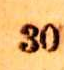30
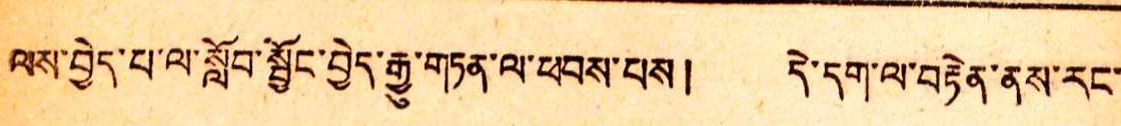ལས་བྱེད་པ་ལ་སློབ་སྦྱོང་བྱེད་རྒྱུ་གཏན་ལ་ཕབས་བས། དེ་དག་ལ་བརྟེན་ནས་རང་
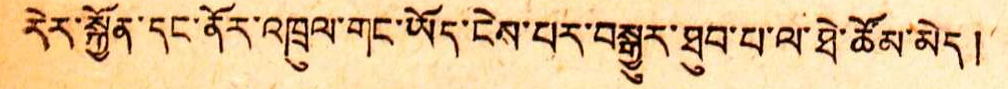རེར་སྐྱོན་དང་ནོར་འཁྲུལ་གང་ཡོད་ངེས་པར་བསྒྱུར་ཐུབ་པ་ལ་ཐེ་ཚོམ་མེད།
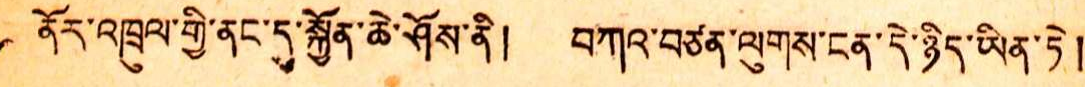ནོར་འཁྲུལ་གྱི་ན་ངདུ་སྐྱོན་ཆེ་ཤོས་ནི། བཀའ་བཙན་ལུགས་ངན་དེ་ཉིད་ཡིན་ཏེ།
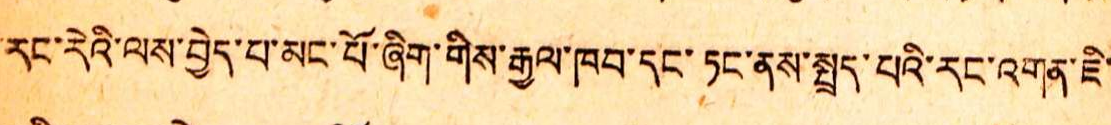རང་རེའི་ལས་བྱེད་པ་མང་པོ་ཞིག་གིས་རྒྱལ་ཁབ་དང་ཏང་ནས་སྤྲད་པའི་རང་འགན་ཇི་
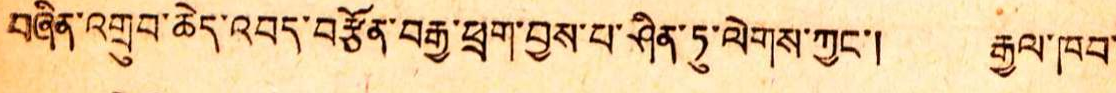བཞིན་འགྲུབ་ཆེད་འབད་བརྩོན་བརྒྱ་ཕྲག་བྱས་པ་ཤིན་ཏུ་ལེགས་ཀྱང་། རྒྱལ་ཁབ་
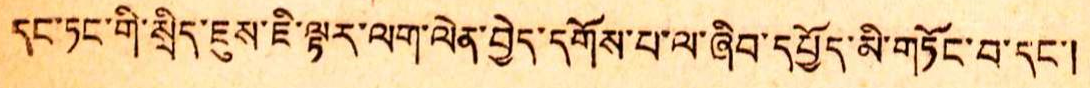དང་ཏང་གི་སྲིད་ཇུས་ཇི་ལྟར་ལག་ལེན་བྱེད་དགོས་པ་ལ་ཞིབ་དཔྱོད་མི་གཏོང་བ་དང་།
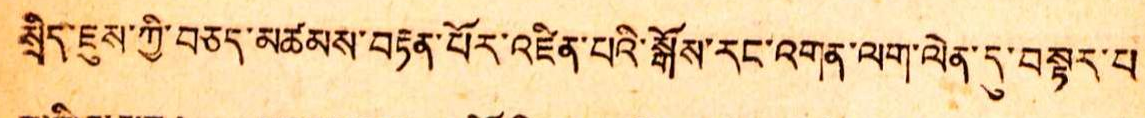སྲིད་ཇུས་ཀྱི་བཅད་མཚམས་བརྟན་པོར་འཛིན་པའི་སྒོས་རང་འགན་ལག་ལེན་དུ་བསྟར་པ
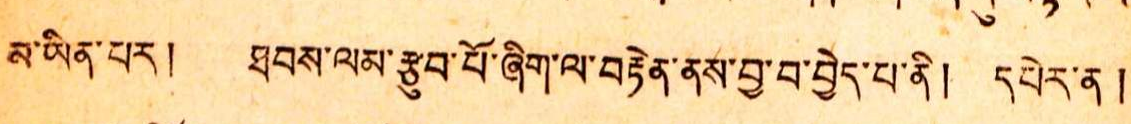མ་ཡིན་པར། ཐགས་ལམ་རྩུབ་པོ་ཞིག་ལ་བརྟེན་ནས་བྱ་བ་བྱེད་པ་ནི། དཔེར་ན།
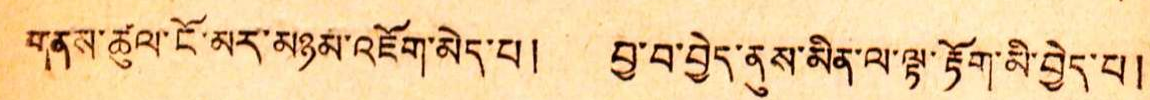གནས་ཚུལ་ངོ་མར་ཡཉམ་འཇོག་མེད་པ། བྱ་བ་བྱེད་ནུས་མིན་ལ་ལྟ་རྟོག་མི་བྱེད་པ།
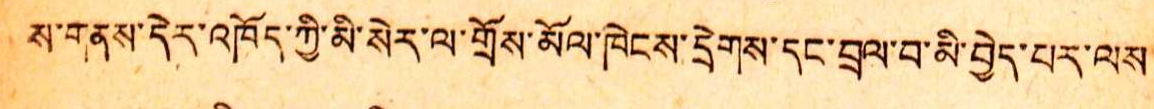ས་གནས་དེར་འཁོད་ཀྱི་མི་སེར་ལ་གྲོས་མོལ་ཁེངས་དྲེགས་དང་བྲལ་བ་མི་བྱེད་པར་ལས་
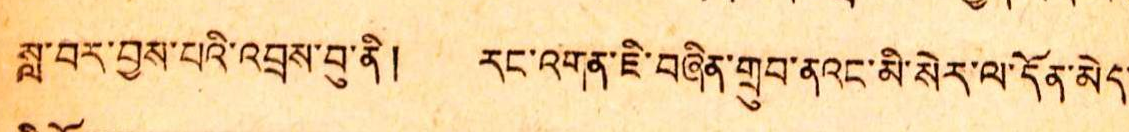བླ་བར་བྱས་པའི་འབྲས་བུ་ནི། རང་འགན་ཇི་བཞིན་གྲུབ་ནའང་མི་སེར་ལ་དོན་མེད་
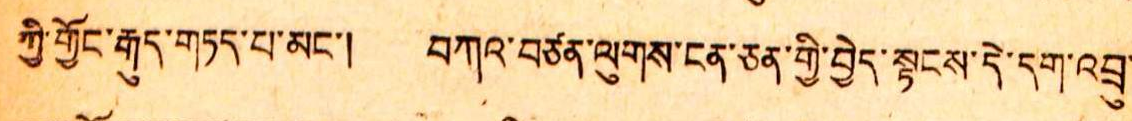ཀྱི་གྱོང་རྒུད་གཏད་པ་མང་། བཀའ་བཙན་ལུགས་ངན་ཅན་གྱི་བྱེད་སྟངས་དེ་དག་འབྲུ་
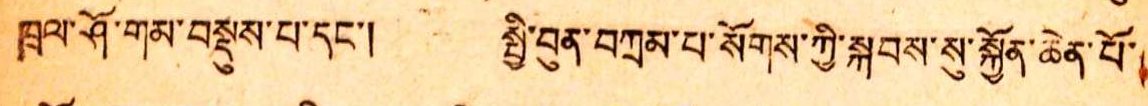ཁྲལ་ཤོ་གམ་བསྡུས་པ་དང་། སྤྱི་བུན་བཀྲམ་པ་སོགས་ཀྱི་སྐབས་སུ་སྐྱོན་ཆེན་པོ་
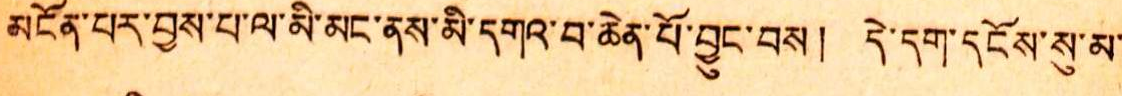མངོན་པར་བྱས་བ་ལ་མི་མང་ནས་མི་དགའ་བ་ཆེན་པོ་བྱུང་བས། དེ་དག་དངོས་སུ་མ་
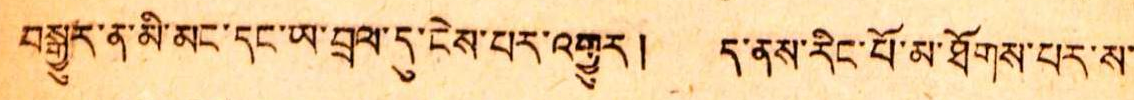བསྒྱུར་ན་མི་མང་དང་ཡ་བྲལ་དུ་ངེས་པར་འགྱུར། ད་ནས་རིང་པོ་མ་ཐོགས་པར་ས་
